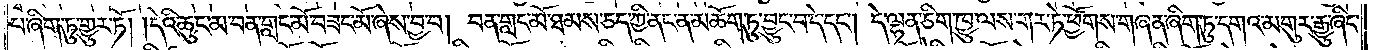པ་ཞིག་ཏུ་གྱུར་ཏོ། །དེའི་ཆུང་མ་བན་གླང་མོ་བཟང་མོ་ཞེས་བྱ་བ། བན་གླང་མོ་ཐམས་ཅད་ཀྱི་ནང་ན་མཆོག་ཏུ་བྱུང་བ་དེ་དང༌། དེ་ལྷན་ཅིག་ཁྱུ་ལས་གར་ཏེ་ཕྱོགས་གཞན་ཞིག་ཏུ་དགའ་མགུར་རྒྱུ་ཞིང་
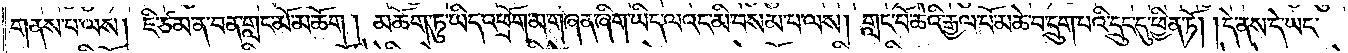གནས་པ་ལས། ཇི་ཙམ་ན་བན་གླང་མོ་མཆོག །མཆོག་ཏུ་ཡིད་འཕྲོག་མ་གཞན་ཞིག་ཡིད་ལའང་མི་བསམ་པ་ལས། གླང་པོ་ཆེའི་རྒྱལ་པོ་མཆེ་བ་དྲུག་པའི་དྲུང་དུ་ཕྱིན་ཏོ། །དེ་ནས་དེ་ཡང་
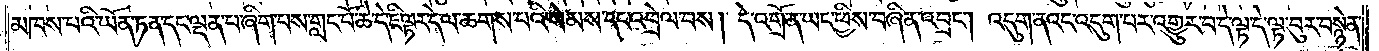མཁས་པའི་ཡོན་ཏན་དང་ལྡན་པ་ཞིག་པས་གླང་པོ་ཆེ་དེ་ཇི་ལྟར་དེ་ལ་ཆགས་པའི་སེམས་དང་འབྲེལ་བས། དེ་འགྲོ་ན་ཡང་ཕྱིས་བཞིན་འབྲང༌། འདུག་ནའང་འདུག་པར་འགྱུར་བ་དེ་ལྟ་དེ་ལྟ་བུར་བསྙེན་
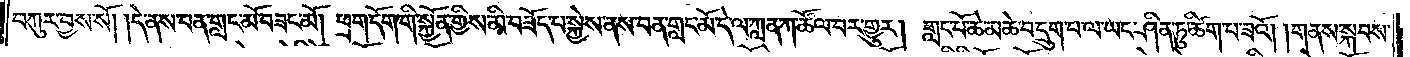བཀུར་བྱས་སོ། །དེ་ནས་བན་གླང་མོ་བཟང་མོ། ཕྲག་དོག་གི་སྐྱོན་གྱིས་མི་བཟོད་པ་སྐྱེས་ནས་བན་གླང་མོ་དེ་ལ་ཀླན་ཀ་ཚོལ་བར་གྱུར། གླང་པོ་ཆེ་མཆེ་བ་དྲུག་པ་ལ་ཡང་ཤིན་ཏུ་ཚིག་པ་ཟའོ། །གནས་སྐབས་
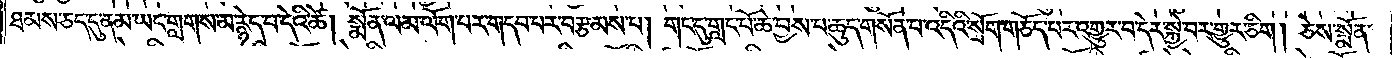ཐམས་ཅད་དུ་ནམ་ཡང་གླགས་མ་རྙེད་པ་དེའི་ཚེ། སྨོན་ལམ་ལོག་པར་གདབ་པར་བརྩམས་པ། གང་དུ་གླང་པོ་ཆེ་བྱས་པ་ཆུད་གསོན་པ་འདིའི་སྲོག་གཅོད་པར་འགྱུར་བ་དེར་སྐྱེ་བར་གྱུར་ཅིག། ཅེས་སྨོན་
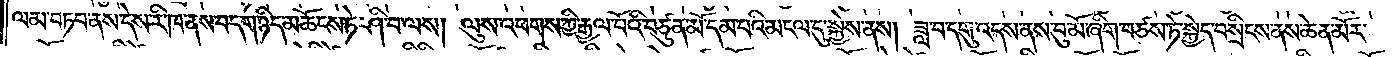ལམ་བཏབ་ནས་དེས་རི་ཁ་ནས་བདག་ཉིད་མཆོངས་ཏེ་ཤི་བ་ལས། ལུས་འཕགས་ཀྱི་རྒྱལ་པོའི་བཙུན་མོ་དམ་པའི་མངལ་དུ་སྐྱེས་ནས། ཟླ་བ་དགུ་འདས་ནས་བུ་མོ་ཞིག་བཙས་ཏེ་སྐྱེད་བསྲིངས་ནས་ཆེན་མོར་
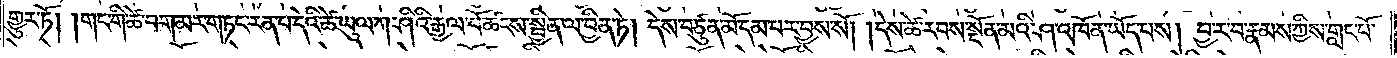གྱུར་ཏོ། །གང་གི་ཚེ་བག་མར་གཏང་རན་པ་དེའི་ཚེ་ཡུལ་ཀ་ཤིའི་རྒྱལ་པོ་ཚངས་སྦྱིན་ལ་བྱིན་ཏེ། དེས་བཙུན་མོ་དམ་པར་བྱས་སོ། །དེས་ཚེ་རབས་སྔོན་མའི་ཤ་འཁོན་ཡོད་པས། བྱ་ར་བ་རྣམས་ཀྱིས་གླང་པོ་
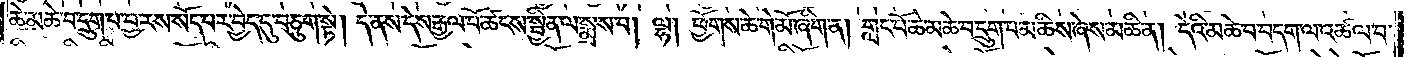ཆེ་མཆེ་བ་དྲུག་པ་བྱ་རས་སོད་པར་བྱེད་དུ་བཅུག་སྟེ། དེ་ནས་དེས་རྒྱལ་པོ་ཚངས་སྦྱིན་ལ་སྨྲས་པ། ལྷ། ཕྱོགས་ཆེ་གེ་མོ་ཞིག་ན། གླང་པོ་ཆེ་མཆེ་བ་དྲུག་པ་མཆིས་ཞེས་མཆི་ན། དེའི་མཆེ་བ་བདག་ལ་འཚལ་བ་
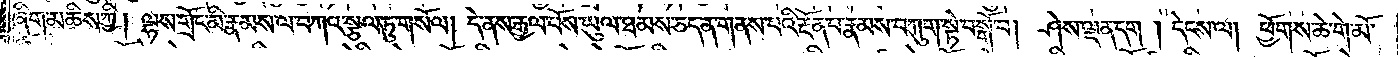ཞིག་མཆིས་ཀྱི། ལྷས་གྲོང་མི་རྣམས་ལ་བཀའ་སྩལ་ཏུ་གསོལ། དེ་ནས་རྒྱལ་པོས་ཡུལ་ཐམས་ཅད་ན་གནས་པའི་རྔོན་པ་རྣམས་བཀུག་སྟེ་བསྒོ་བ། ཤེས་ལྡན་དག། དེངས་ལ། ཕྱོགས་ཆེ་གེ་མོ་
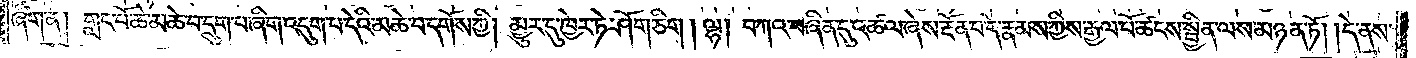ཞིག་ན། གླང་པོ་ཆེ་མཆེ་བ་དྲུག་པ་ཞིག་འདུག་པ་དེའི་མཆེ་བ་དགོས་ཀྱི། མྱུར་དུ་ཁྱེར་ཏེ་ཤོག་ཅིག། ལྷ། བཀའ་བཞིན་དུ་འཚལ་ཞེས་རྔོན་པ་དེ་རྣམས་ཀྱིས་རྒྱལ་པོ་ཚངས་སྦྱིན་ལས་མཉན་ཏོ། །དེ་ནས་
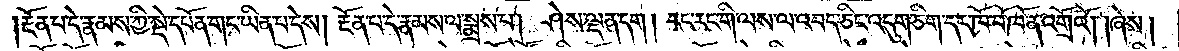རྔོན་པ་དེ་རྣམས་ཀྱི་སྡེ་དཔོན་གང་ཡིན་པ་དེས། རྔོན་པ་དེ་རྣམས་ལ་སྨྲས་པ། ཤེས་ལྡན་དག། རང་རང་གི་ལས་ལ་འབད་ཅིང་འདུག་ཅིག་དང་ཁོ་བོ་ཁོ་ན་འགྲོའོ། །ཞེས།
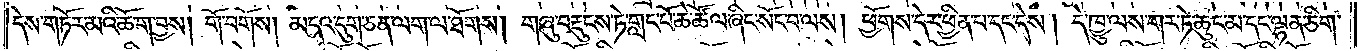དེས་གཏོར་མའི་ཆོ་ག་བྱས། གོ་བགོས། མདའ་དུག་ཅན་ལག་ལ་ཐོགས། གཞུ་བརྡུངས་ཏེ་གླང་པོ་ཆེ་ཚོལ་ཞིང་སོང་བ་ལས། ཕྱོགས་དེར་ཕྱིན་པ་དང་དེས། དེ་ཁྱུ་ལས་གར་ཏེ་ཆུང་མ་དང་ལྷན་ཅིག་
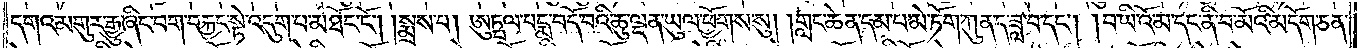དགའ་མགུར་རྒྱུ་ཞིང་བག་བརྐྱང་སྟེ་འདུག་པ་མཐོང་ངོ༌། །སྨྲས་པ། ཨུཏྤལ་པདྨ་བདོ་བའི་ཆུ་ལྡན་ཡུལ་ཕྱོགས་སུ། །གླང་ཆེན་དམ་པ་མེ་ཏོག་ཀུན་ད་ཟླ་བ་དང༌། །བ་ཡི་འོ་མ་དང་ནི་བ་མོའི་མདོག་ཅན་
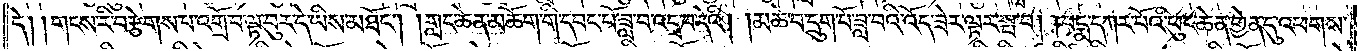དེ། །གངས་རི་བརྩེགས་པ་འགྲོ་བ་ལྟ་བུར་དེ་ཡིས་མཐོང༌། །གླང་ཆེན་མཆོག་གི་དབང་པོ་ཟླ་བ་འདྲ་བ་དེའི། །མཆེ་བ་དྲུག་པོ་ཟླ་བའི་འོད་ཟེར་ལྟར་སྤ་བ། །པདྨ་དཀར་པོའི་ཕུང་ཆེན་གྱེན་དུ་འཕགས་
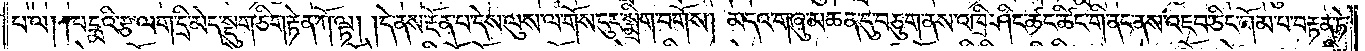པ་ལ། །པདྨའི་རྩ་ལག་དྲི་མེད་སྡུག་ཅིག་རྟེན་ཀོ་ལྟ། །དེ་ནས་རྔོན་པ་དེས་ལུས་ལ་གོས་ངུར་སྨྲིག་བགོས། མདའ་གཞུ་མཆན་དུ་བཅུག་ནས་འཁྲི་ཤིང་ཚང་ཚིང་གི་ནང་ནས་འཇབ་ཅིང་གོམ་པ་བརྟན་ཏེ་
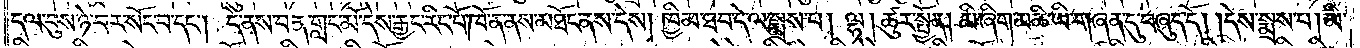དལ་བུས་ཉེ་བར་སོང་བ་དང༌། དེ་ནས་བན་གླང་མོ་དེས་རྒྱང་རིང་པོ་ཁོ་ན་ནས་མཐོང་ནས་དེས། ཁྱིམ་ཐབ་དེ་ལ་སྨྲས་པ། ལྷ། ཚུར་སྤྱོན། མི་ཞིག་མཆི་ཡི་གཞན་དུ་བཞུད་དོ། །དེས་སྨྲས་པ། མི་
